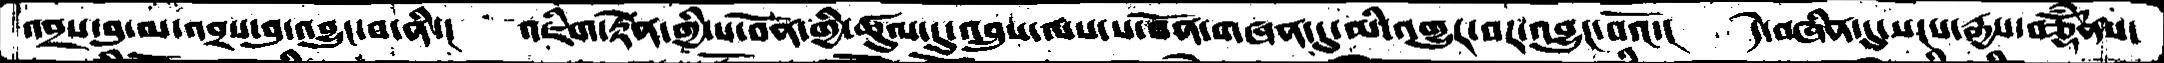འབྲས་བུ་མ་འབྲས་བུ་འབྱུང་བ་ནི་།  འཇིག་རྟེན་གྱི་ས་བོན་གྱི་ཚུལ་དུ་འབྲུས་ལས་ས་བོན་གཞན་དུ་མི་འགྱུར་བར་འབྱུང་བའོ་།  དེ་བཞིན་དུ་སངས་རྒྱས་བཅྡོཾནས་
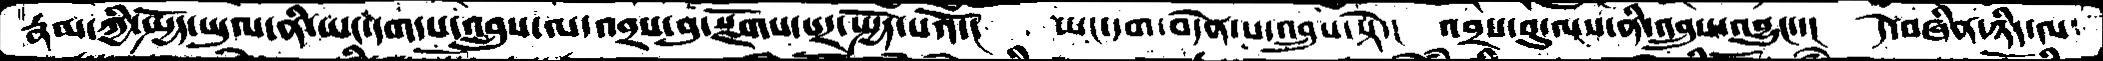རྣམ་ཀྱི་སྤྱོད་ཡུལ་ནི་ཡང་དག་པ་འབྲུས་ལ་འབྲས་བུ་སྫོགས་པར་སྤྱོད་པའོ་།  ཡང་དག་བདེན་པ་འབྲུས་སྟེ་།  འབྲས་བུ་ལས་ནི་འབྲུས་འབྱུང་་།  དེ་བཞིན་ཉིད་ལ་
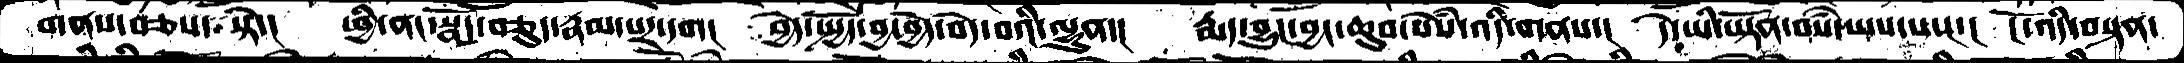གནས་བཅས་སྟེ་།  ཕྱི་ནང་སྣོད་བཅུད་རྣམ་པར་དག།  བྱེད་སྤྱོད་བྱ་བྱེད་བདེ་བའི་ལྷུན་།  རྨད་བྱུང་བྱང་ཆུབ་སེསཾ་འདི་གནས་།  དེ་ཡི་ཡྟོན་བསཾ་ཡས་པས་།  ངོ་འདི་བསྟན་
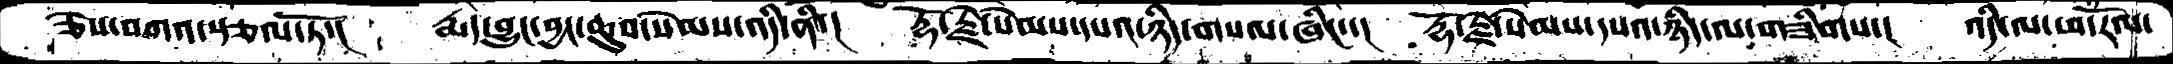ཅེས་བཀའ་སྩལ་ཏོ་།  རྨད་བྱུང་བྱང་ཆུབ་སེམས་འདི་ནི་།  རྡོ་རྗེ་སེམས་དཔའ་ཉིད་གསལ་ཞིང་་།  རྡོ་རྗེ་སེམས་དཔའ་ཉིད་ལ་གཟིགས་།  འདི་ལ་ཕ་རོལ་
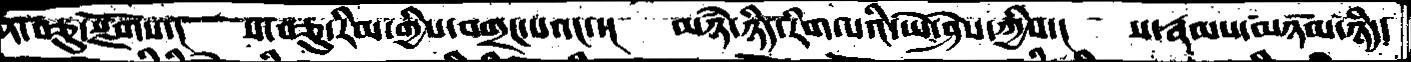ཏོ་བཅུ་སྫོགས་།  ས་བཅུ་རིམ་གྱིས་བགྲང་པའང་་།  མཉཾ་ཉིད་རིག་པའི་ཡེ་ཤེས་ཀྱིས་།  ས་རྣམས་མཉམ་ཉིད་
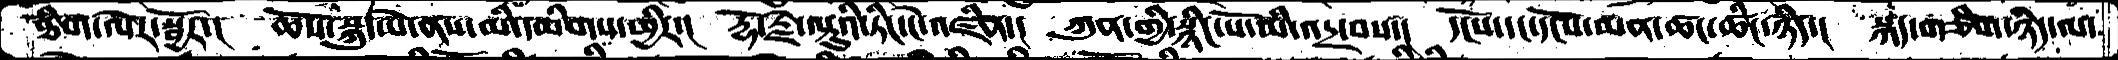ཐིག་ལེར་སྦྱོར་།  ཆོས་སྐུ་ཡེ་ནས་མི་དམིགས་ཕྱིར་།  རྡོ་རྗེ་ལྟུའི་ཏིང་ངེ་འཛིན་།  ཀུན་གྱི་སྙིང་པོ་མི་འདྲ་བས་།  དངོས་དང་དངོས་མན་ཚང་ཚིང་ཉིད་།  སྐད་གཅིག་ཉིད་ལ་
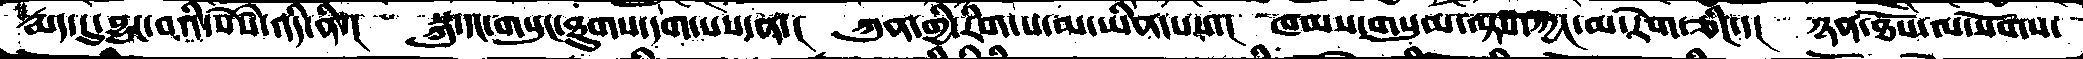རྨད་དུ་བྱུང་བའི་སེསཾ་འདི་ནི་།  སྐུ་དང་གསུང་ཐུགས་དག་པས་ན་།  ཀུན་གྱི་རིག་པ་མ་ཡིན་པས་།  ཁམས་གསུམ་ལྟས་ཀྱང་མ་རེག་ཅིང་་།  ཉན་ཐོས་ལ་སོགས་
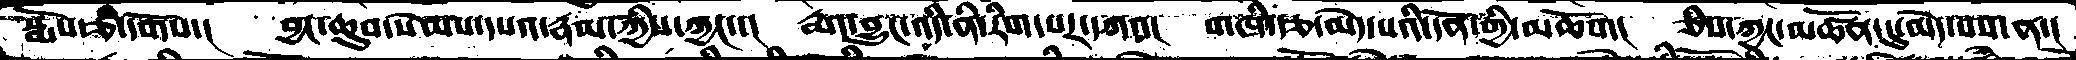སྨོས་ཅི་དགོས་།  བྱང་ཆུབ་སེམས་དཔའ་རྣམ་ཀྱིས་ཀྱང་་།  རྨད་བྱུང་འདི་ནི་རིག་པར་དཀའ།  གཞི་རྩ་མེད་པའི་དོན་གྱི་མཆོག།  ཅིས་ཀྱང་མཚོན་དུ་མེད་པས་ན་།
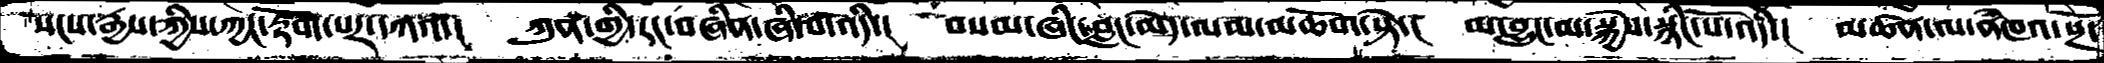སངས་རྒྱས་ཀྱིས་ཀྱང་རྟོག་པར་དཀའ་།  ཀུན་གྱི་་རང་བཞིན་ཞི་བ་འདི་།  བསམ་ཞིང་བླང་མེད་ལམ་མཆོག་སྟེ་།  མ་བྱུང་མ་སྐྱེས་སྙིང་པོ་འདི་།  མཚན་ལ་ནཾཁའ་སྔོ་
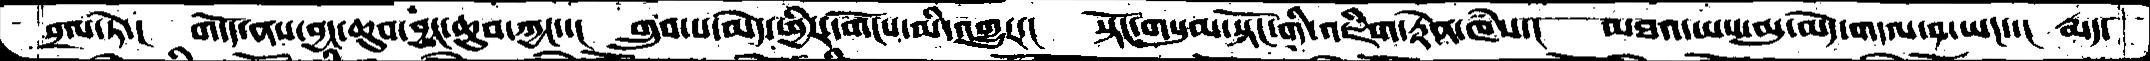བྲལ་ཏེ་།  གདོད་ནས་བྱང་ཆུབ་བྱང་ཆུབ་ཀྱང་་།  གྲུབ་པ་མེད་ཕྱིར་དགོངས་མི་འགྱུར་།  སྟོང་གསུམ་སྟོང་གི་འཇིག་རྟེན་ཁཾས་།  མཐའ་ཡས་མུ་མེད་གདལ་བ་ཡང་་།  རྨད་
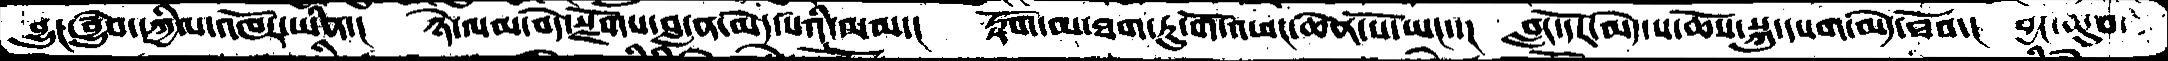བྱུང་བྱུཾབ་དཀྱིལ་འཁོར་ཡིན་།  ཉེ་ལམ་བདེ་སྫོགས་བླ་ན་མེད་པའི་ལམ་།  རྟོག་མ་ཐག་ཏུ་གོ་འཕང་ཆེན་པོ་ཡང་་།  བླང་དོར་མེད་པ་ཆོས་སྐུ་དཔག་མེད་ཐོབ་།  བྱང་ཆུབ་
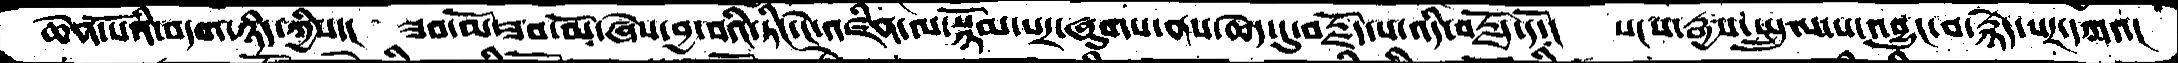ཆེན་པོའི་བདག་ཉིད་ཀྱིས་།  ཟབ་མོ་ཟབ་མོ་ཞེས་བྱ་བའི་ཏིང་ངེ་འཛིན་ལ་སྙོམ་པར་ཞུགས་ནས་ཆེད་དུ་བརྗོད་པ་འདི་བརྗོད་དོ་། སངས་རྒྱས་སྤྲུལ་པ་འབྱུང་བ་རྙེད་པར་དཀའ་
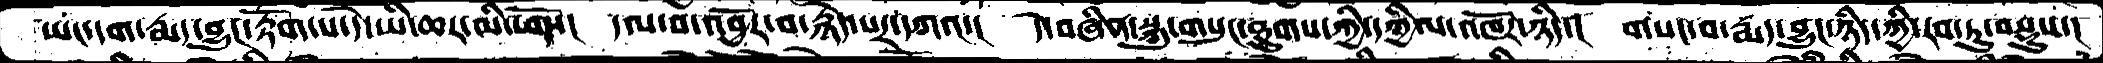ཡང་དག་རྨད་བྱུང་རྟོག་པ་དེ་ཡི་ཆར་མི་ཕོད་།  དལ་བ་འབྱོར་བ་རྙེད་པར་དཀའ་།  དེ་བཞིན་སྐུ་གསུང་ཐུགས་ཀྱི་དཀྱིལ་འཁོར་ཉིད་།  གསང་བ་རྨད་བྱུང་ཉིད་ཀྱི་རབ་ཏུ་བསྡུས་།
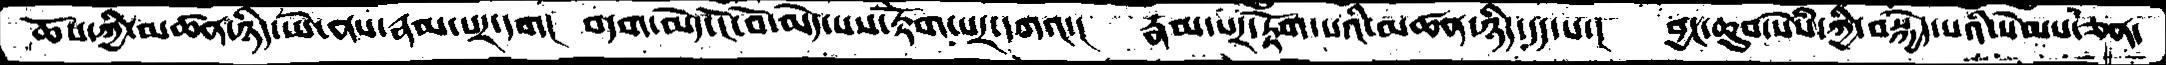ཆོས་ཀྱི་མཚན་ཉིད་ཡེ་ནས་རྣམ་པར་དག།  བདག་མེད་ངོ་བོ་མེད་པས་རྟོག་པར་དཀའ་།  རྣམ་པར་རྟོག་པའི་མཚན་ཉིད་དད་པ་།  བྱང་ཆུབ་སེསཾ་ཀྱི་བསྐྱེད་པའི་སེམས་ཅན་
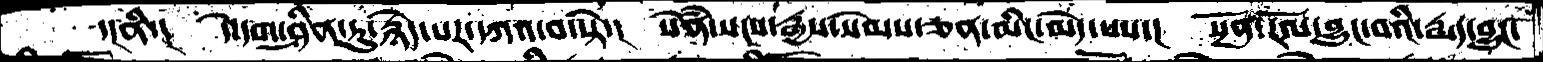་།ནི་།  དེ་དག་ཤིན་ཏུརྙེད་པར་དཀའ་བ་སྟེ་།  སེནཾ་སངས་རྒྱས་སེམས་ཅན་མིང་མེད་པས་།  སྔོན་རོལ་བྱུང་བའི་རྨད་བྱུང་
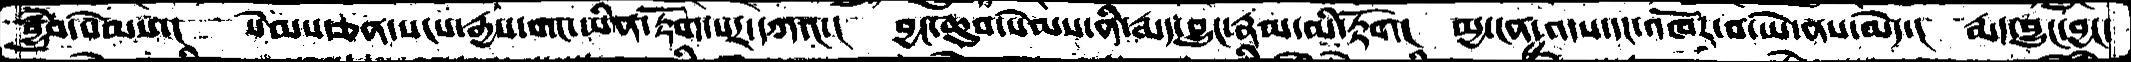བྱུཾབ་སེམས་།  སེམས་ཅན་སངས་རྒྱས་གང་ཡིན་རྟོག་པར་དཀའ་།  བྱང་ཆུབ་སེམས་ནི་རྨད་བྱུང་རྣམ་མི་རྟོག།  མྱ་ངན་འདས་དང་འཁོར་བ་ཡེ་ནས་མེད་།  རྨད་བྱུང་བྱང་
